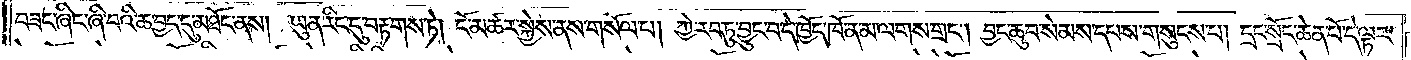བཟང་ཞིང་ཞི་བའི་ཆ་བྱད་དུ་མཐོང་ནས། ཡུན་རིང་དུ་བརྟགས་ཏེ། ངོ་མཚར་སྐྱེས་ནས་གསོལ་བ། ཀྱེ་རབ་ཏུ་བྱུང་བ་དེ་ཁྱོད་ཁོ་ན་མ་ལགས་གྲང༌། བྱང་ཆུབ་སེམས་དཔས་གསུངས་པ། དྲང་སྲོང་ཆེན་པོ་དེ་ལྟར་
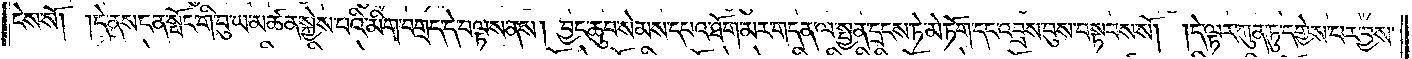ངེས་སོ། །དེ་ནས་ངན་སྤོང་གི་བུ་ཡ་མཚན་སྐྱེས་པའི་མིག་བགྲད་དེ་བལྟས་ནས། བྱང་ཆུབ་སེམས་དཔའ་ཐོག་མར་གདན་ལ་སྤྱན་དྲངས་ཏེ་མེ་ཏོག་དང་འབྲས་བུས་བསྟབས་སོ། །དེ་ལྟར་ཀུན་ཏུ་དགྱེས་པར་བྱས་
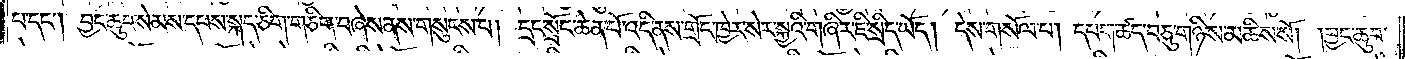པ་དང༌། བྱང་ཆུབ་སེམས་དཔས་སྐད་ཅིག་གཅིག་བཞེས་ནས་གསུངས་པ། དྲང་སྲོང་ཆེན་པོ་འདི་ནས་གྲོང་ཁྱེར་སེར་སྐྱའི་གཞིར་ཇི་སྲིད་ཡོད། དེས་གསོལ་པ། དཔག་ཚད་བཅུ་གཉིས་མཆིས་སོ། །བྱང་ཆུབ་
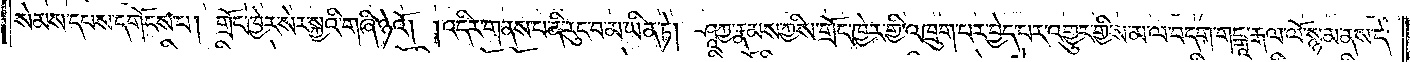སེམས་དཔས་དགོངས་པ། གྲོང་ཁྱེར་སེར་སྐྱའི་གཞི་ཉེའོ། །འདིར་གནས་པ་ནི་རུང་བ་མ་ཡིན་ཏེ། ཤཱཀྱ་རྣམས་ཀྱིས་གྲོང་ཁྱེར་གྱི་འཁྲུག་པར་བྱེད་པར་འགྱུར་གྱིས་མ་ལ་བདག་གངྒཱ་རྒལ་ལོ་སྙམ་ནས་དེ་
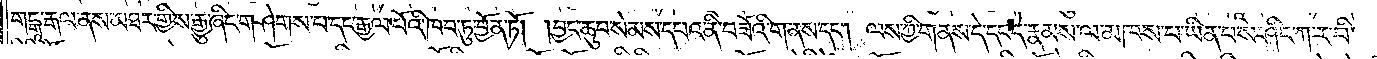གངྒཱ་རྒལ་ནས་མཐར་གྱིས་རྒྱུ་ཞིང་གཤེགས་པ་དང་རྒྱལ་པོའི་ཁབ་ཏུ་བྱོན་ཏོ། །བྱང་ཆུབ་སེམས་དཔའ་ནི་བཟོའི་གནས་དང༌། ལས་ཀྱི་གནས་དེ་དང་དེ་རྣམས་ལ་མཁས་པ་ཡིན་པས་ཤིང་ཀ་ར་བི་
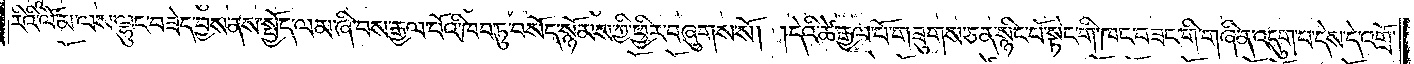རིའི་ལོ་མ་ལས་ལྷུང་བཟེད་བྱས་ནས་སྤྱོད་ལམ་ཞི་བས་རྒྱལ་པོའི་ཁབ་ཏུ་བསོད་སྙོམས་ཀྱི་ཕྱིར་བཞུགས་སོ། །དེའི་ཚེ་རྒྱལ་པོ་གཟུགས་ཅན་སྙིང་པོ་སྟེང་གི་ཁང་བཟང་གི་གཞི་ན་འདུག་པ་དེས་དེ་འགྲོ་
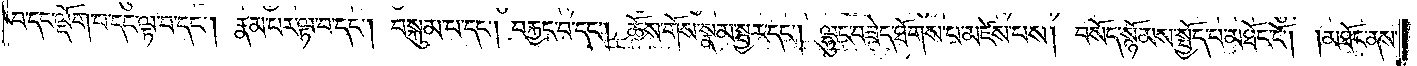བ་དང་ལྡོག་པ་དང་ལྟ་བ་དང༌། རྣམ་པར་ལྟ་བ་དང༌། བསྐུམ་པ་དང༌། བརྐྱང་བ་དང༌། ཆོས་གོས་སྣམ་སྦྱར་དང༌། ལྷུང་བཟེད་ཐོགས་པ་མཛེས་པས། བསོད་སྙོམས་སྤྱོད་པ་མཐོང་ངོ༌། །མཐོང་ནས་
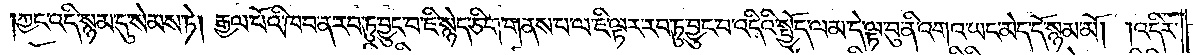ཀྱང་འདི་སྙམ་དུ་སེམས་ཏེ། རྒྱལ་པོའི་ཁབ་ན་རབ་ཏུ་བྱུང་བ་ཇི་སྙེད་ཅིག་གནས་པ་ལ་ཇི་ལྟར་རབ་ཏུ་བྱུང་བ་འདིའི་སྤྱོད་ལམ་དེ་ལྟ་བུ་ནི་འགའ་ཡང་མེད་དོ་སྙམ་མོ། །འདིར་
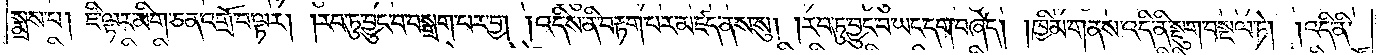སྨྲས་པ། ཇི་ལྟར་མིག་ཅན་འགྲོ་བ་ལྟར། །རབ་ཏུ་བྱུང་བ་བསྒྲག་པར་བྱ། །འདིས་ནི་བརྟག་པར་མཛད་ནས་སུ། །རབ་ཏུ་བྱུང་བ་ཡང་དག་བཞེད། །ཁྱིམ་གནས་འདི་ནི་སྡུག་བསྔལ་ཏེ། །འདི་ནི་
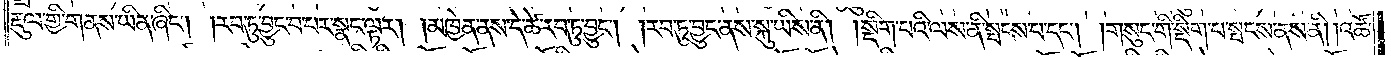རྡུལ་གྱི་གནས་ཡིན་ཞིང༌། །རབ་ཏུ་བྱུང་བ་པར་སྣང་ལྟར། །མཁྱེན་ནས་དེ་ཚེ་རབ་ཏུ་བྱུང༌། །རབ་ཏུ་བྱུང་ནས་སྐུ་ཡིས་ནི། །སྡིག་པའི་ལས་ནི་སྤངས་པ་དང༌། །གསུང་གི་སྡིག་པ་སྤངས་ནས་ནི། །འཚོ་
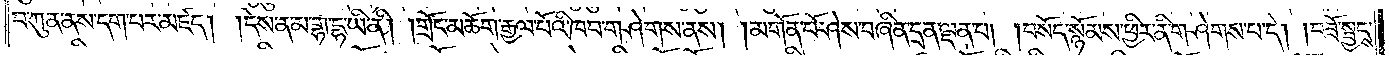བ་ཀུན་ནས་དག་པར་མཛད། །དེས་ན་མ་གྷ་དྷ་ཡི་ནི། །གྲོང་མཆོག་རྒྱལ་པོའི་ཁབ་གཤེགས་ནས། །མགོན་པོ་ཤེས་བཞིན་དྲན་ལྡན་པ། །བསོད་སྙོམས་ཕྱིར་ནི་གཤེགས་པ་དེ། །བཟོ་སྦྱངས་
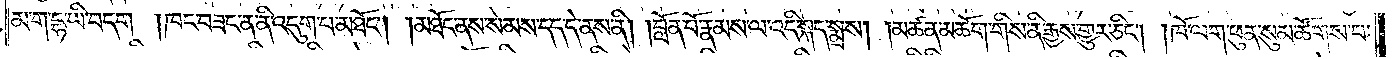མ་ག་དྷ་ཡི་བདག །ཁང་བཟང་ན་ནི་འདུག་པ་མཐོང༌། །མཐོང་ནས་སེམས་དད་དེ་ནས་ནི། །བློན་པོ་རྣམས་ལ་འདི་སྐད་སྨྲས། །མཚན་མཆོག་གིས་ནི་རྒྱས་གྱུར་ཅིང༌། །ཁོ་ལག་ཕུན་སུམ་ཚོགས་པ་
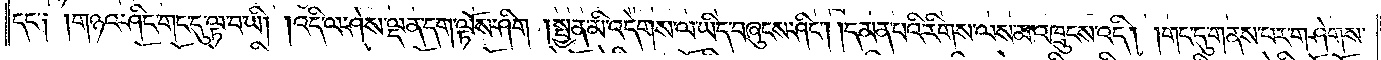དང༌། །གཉའ་ཤིང་གང་དུ་ལྟ་བ་ཡི། །འདི་ལ་ཤེས་ལྡན་དག་ལྟོས་ཤིག །སྤྱན་མི་འདེགས་ལ་ཡིད་བཞུངས་ཤིང༌། །དམན་པའི་རིགས་ལས་མ་འཁྲུངས་འདི། །གང་དུ་གནས་པར་གཤེགས་
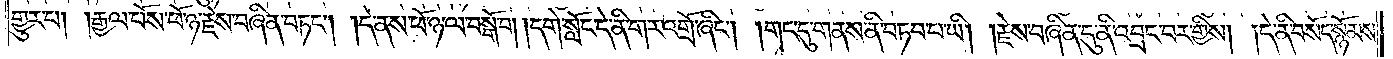གྱུར་པ། །རྒྱལ་པོས་ཕོ་ཉ་རྗེས་བཞིན་བཏང༌། །དེ་ནས་ཕོ་ཉ་ལ་བསྒོ་བ། །དགེ་སློང་དེ་ནི་གར་འགྲོ་ཞིང༌། །གང་དུ་གནས་ནི་བཏབ་པ་ཡི། །རྗེས་བཞིན་དུ་ནི་འབྲང་བར་གྱིས། །དེ་ནི་བསོད་སྙོམས་
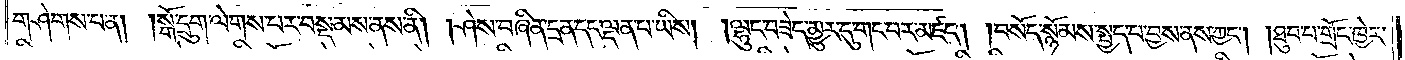གཤེགས་པ་ན། །སྒོ་དྲུག་ལེགས་པར་བསྡམས་ནས་ནི། །ཤེས་བཞིན་དྲན་དང་ལྡན་པ་ཡིས། །ལྷུང་བཟེད་མྱུར་དུ་གང་བར་མཛད། །བསོད་སྙོམས་སྤྱད་པ་བྱས་ནས་ཀྱང༌། །ཐུབ་པ་གྲོང་ཁྱེར་
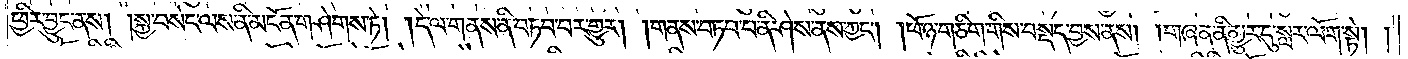ཕྱིར་བྱུང་ནས། །སྐྱ་བསེང་ལས་ནི་མངོན་གཤེགས་ཏེ། །དེ་ལ་གནས་ནི་བཏབ་པར་གྱུར། །གནས་བཏབ་པ་ནི་ཤེས་ནས་ཀྱང༌། །ཕོ་ཉ་གཅིག་གིས་བསྡད་བྱས་ནས། །གཞན་ནི་མྱུར་དུ་སླར་ལོག་སྟེ། །
